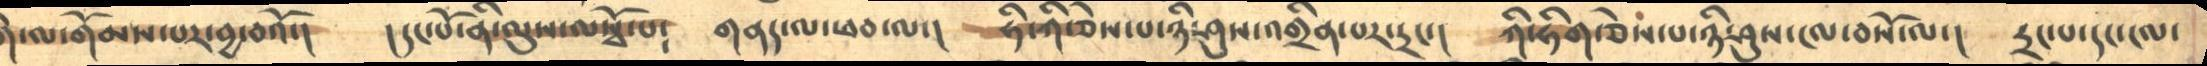དེ་ལ་གོམས་པར་བྱ་བའོ་།  །དང་པོ་ནི་ལུས་ལསྭོ་པ༴  གནད་ལ་ཕབ་ལ་།  ཧི་ཀི་ཅེས་པ་ཉི་ཤུས་འགྲིན་པར་དྲང་།  ཀི་ཧིག་ཅེས་པ་ཉི་ཤུས་ངལ་བསོ་ལ་།  དྲང་པ་དང་ངལ་
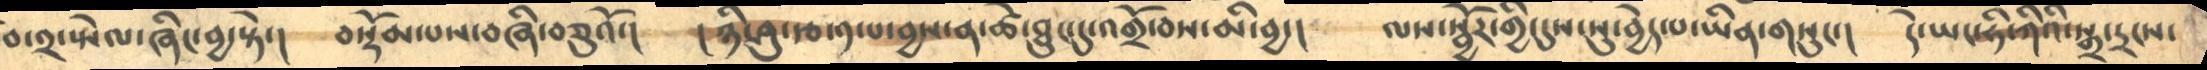བ་༢་སྤེལ་ཞིང་བྱ་སྟེ་།     བསྡོམ་པས་བཞི་བཅུའོ་།    །ཉི་ཤུ་རྩ་༡་པ་བྱས་ན་ཚེ་ཐུང་དུ་འགྲོ་བས་མི་བྱ་།     ལས་སྦྱོར་གྱི་དུས་སུ་བྱེད་པ་ཡིན་གསུང་།    དེ་ཡང་ཧི་ཀིའི་སྒྲ་དྲངས་
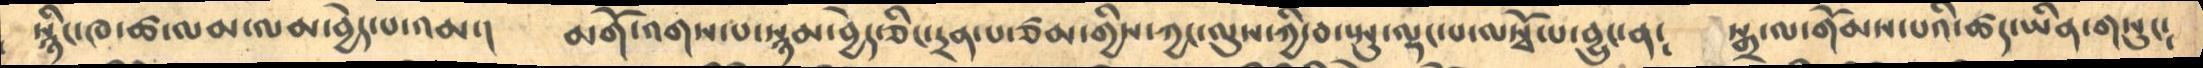སྙིང་ཁ་ཚ་ལམ་ལམ་བྱེད་པ་འམ་།     མགོ་འགས་པ་སྙམ་བྱེད་ཅིང་དྲན་པ་ཙམ་གྱིས་ཀྱང་ལུས་ཀྱི་བ་སྤུ་ལྡང་པ་ལསྭོ་པ་བྱུང་ན༴     སྒྲ་ལ་གོམས་པའི་ཚད་ཡིན་གསུང༴
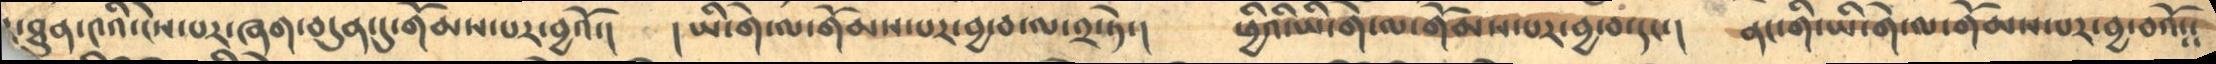ང་ཐུན་༤འི་ངེས་པར་ཞག་བདུན་དུ་གོམས་པར་བྱའོ་།    །ཡི་གེ་ལ་གོམས་པར་བྱ་བ་ལ་༢་ཏེ་།    ཕྱིའི་ཡི་གེ་ལ་གོམས་པར་བྱ་བ་དང་།    ནང་གི་ཡི་གེ་ལ་གོམས་པར་བྱ་བའོ༴༴
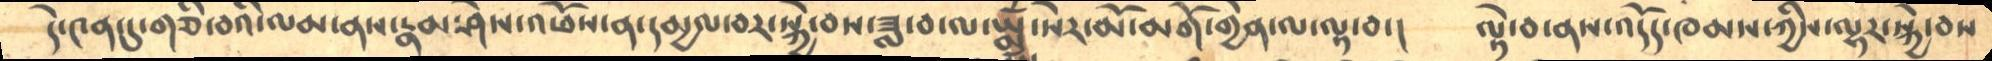དེ་༤ན་དུ་གཅི་བའི་ལམ་ནས་རྣམ་ཤེས་འཕོས་ན་དམྱལ་བར་སྐྱེ་བས་ཟླ་བ་ལ་ཡྨྱཾ་སེར་མོ་མགོ་གྱེན་ལ་ལྟ་བ་།    ལྟེ་བ་ནས་འདོད་ཁམས་ཀྱིས་ལྷར་སྐྱེ་བས
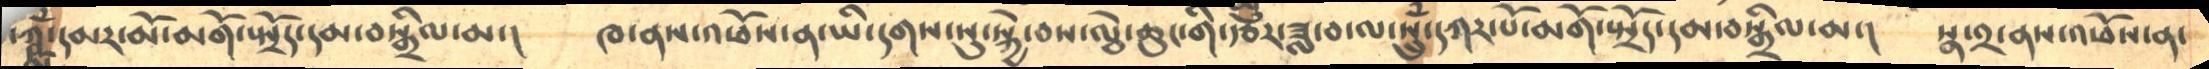ཀྵཾ་དམར་མོ་མགོ་སྤྲོད་དམ་བསྒྲིལ་མ་།     ཁ་ནས་འཕོས་ན་ཡི་དགས་སུ་སྐྱེ་བས་ལྕེ་ཆུང་གི་རྩར་ཟླ་བ་ལ་སྲུཾ་དཀར་པོ་མགོ་སྤྲོད་དམ་བསྒྲིལ་མ་།    སྣ་༢་ནས་འཕོས་ན་
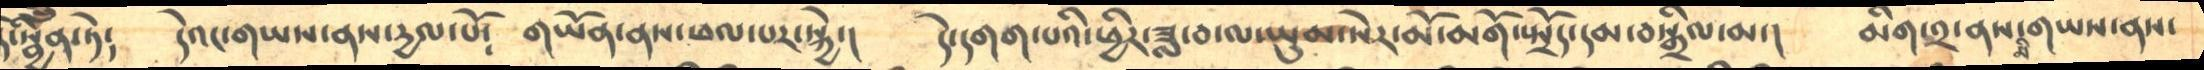དེ་སྦྱིན་ཏེ༴      དེའང་གཡས་ནས་དྱལ་པོ༴     གཡོན་ནས་ཕལ་པར་སྐྱེ་།    དེ་དགག་པའི་ཕྱིར་ཟླ་བ་ལ་ཡུམ་སེར་མོ་མགོ་སྤྲོད་དམ་བསྒྲིལ་མ་།   མིག་༢་ནས་གཡས་ནས་
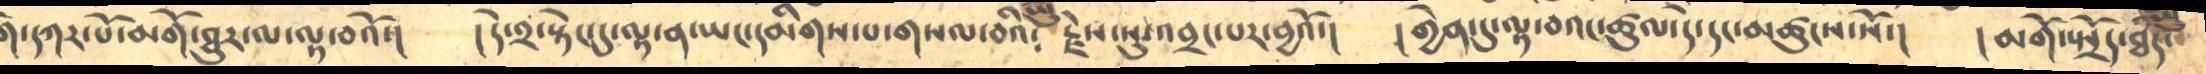དཀར་པོ་མགོ་ཐུར་ལ་ལྟ་བའོ་།    །དེ་༢་སྟེང་དུ་ལྟ་ན་ཡང་དམིགས་པ་གསལ་བའི༴  རྗེས་སུ་འབྲང་པར་བྱའོ་།     །གྱེན་དུ་ལྟ་བའང་ཚུལ་དེ་དང་མཚུངས་སོ་།      །མགོ་སྤྲོད་ཐཾད་
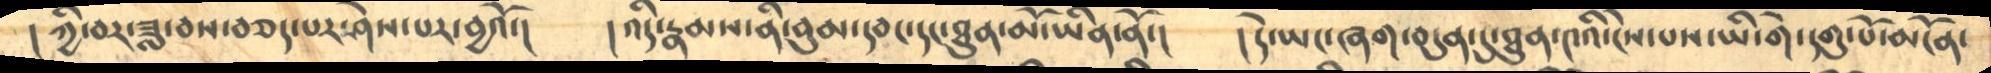། ཀྱི་བར་ཟླ་བས་བཅད་པར་ཤེས་པར་བྱའོ་།     །འདི་རྣམས་ནི་བུམ་དབང་དང་ཐུན་མོ་ཡིན་ནོ་།     །དེ་ཡང་ཞག་བདུན་དུ་ཐུན་༤འི་ངེས་པས་ཡི་གེ་དགུ་པོ་མངོན་
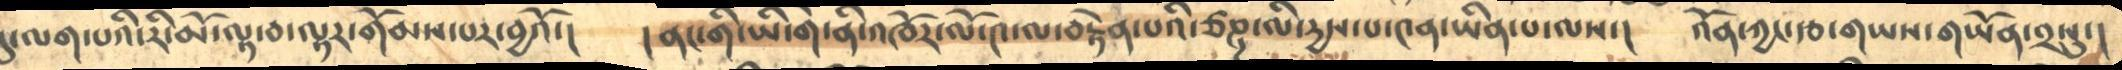དུ་ལག་པའི་རི་མོ་ལྟ་བ་ལྟར་གོམས་པར་བྱའོ་།  །ནང་གི་ཡི་གེ་ནི་འཁོར་ལོ་༤་ལ་བརྟེན་པའི་ཙཎྜ་ལི་དྱས་པ་༤ན་ཡིན་པ་ལས་། འོན་ཀྱང་རྩ་གཡས་གཡོན་༢སུ་།
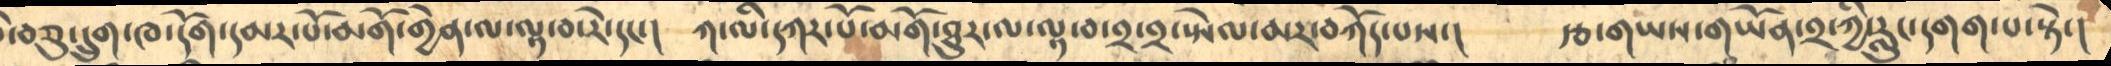་བཅུ་དྲུག་ཁ་དོག་དམར་པོ་མགོ་གྱེན་ལ་ལྟ་བ་རེ་དང་།    ཀ་ལི་དཀར་པོ་མགོ་ཐུར་ལ་ལྟ་བ་༢་༢་སྤེལ་མར་བཀོད་པས་།    རྩ་གཡས་གཡོན་༢་ཀྱི་རླུང་དགག་པ་སྟེ་།
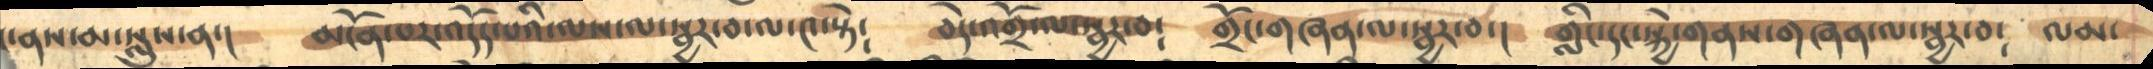ང་ནས་མ་སླུས་ན་།   མངོན་པར་འདོད་པའི་ལས་ལ་སྦྱོར་བ་ལ་༤་སྟེ༴    བདེ་འགྲོ་ལ་སྦྱར་བ༴  གྲོང་གཞན་ལ་སྦྱར་བ་།  གླིང་དང་སྐྱེ་གནས་གཞན་ལ་སྦྱར་བ༴  ལམ་
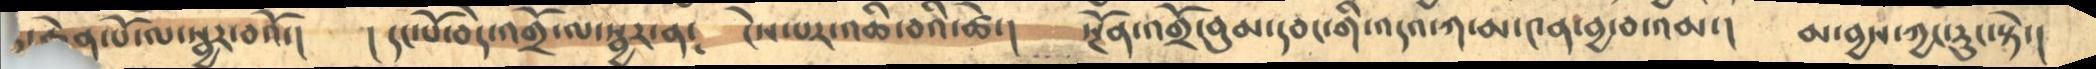་ཆེན་པོ་ལ་སྦྱར་བའོ་།   །དང་པོ་བདེ་འགྲོ་ལ་སྦྱར་ན༴  ངེས་པར་འཆི་བའི་ཚེ་།   སྔོན་འགྲོ་བུམ་དབང་གི་འདའ་ཀ་མ་༤ན་བྱ་བ་འམ་།  མ་བྱས་ཀྱང་རུང་སྟེ་།
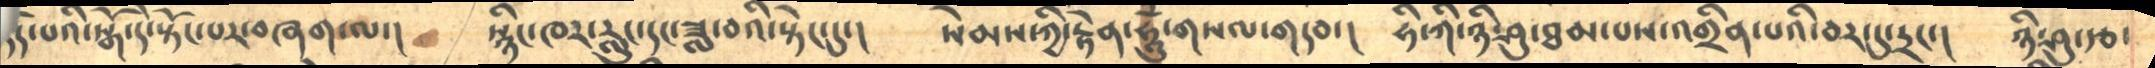དདོ་པའི་སྒོ་དེ་སྟོང་པར་བཞག་ལ་།    སྙིང་ཁར་རླུང་དང་ཟླ་བའི་སྟེང་དུ་།      སེམས་ཀྱི་རྟེན་ཧཱུཾ་གསལ་གདབ་།     ཧི་ཀི་ཉི་ཤུ་ཐམ་པས་འགྲིན་པའི་བར་དུ་དྲང་།     ཉི་ཤུ་རྩ་
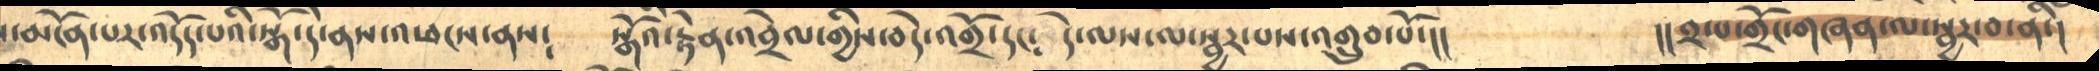་མངོན་པར་འདོད་པའི་སྒོ་དེ་ནས་འཕངས་ནས༴    སྒོའི་རྟེན་འབྲེལ་གྱིས་བདེ་འགྲོ་དང༴   དེ་ལས་ལ་སྦྱར་པས་འགྲུབ་པོ་།།             །། ༢་པ་གྲོང་གཞན་ལ་སྦྱར་བ་ནི་།
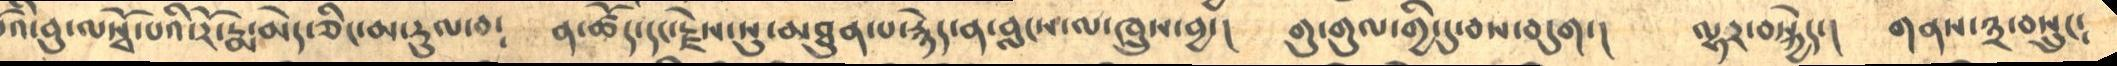དེའི་བུ་ལསྭོ་པའི་རོ་རྨ་མེད་ཅིང་མ་རུལ་བ༴     ན་ཚོད་དང་རྗེས་སུ་མཐུན་པ་རྙེད་ན་བླངས་ལ་ཁྲུས་བྱ་།       གུ་གུལ་གྱི་དུ་བས་བདུག་།     ལྷར་བསྐྱེད་།    གནས་༣་བསྲུང༴
